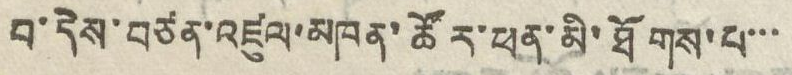བ་དེས་བཙན་འཛུལ་མཁན་ཚོར་ཕན་མི་ཐོགས་པ་་་
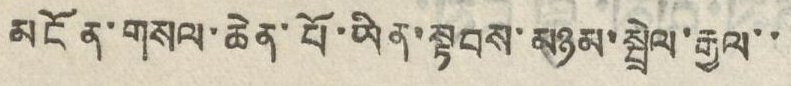མངོན་གསལ་ཆེན་པོ་ཡིན་སྟབས་མཉམ་སྦྲེལ་རྒྱལ་་
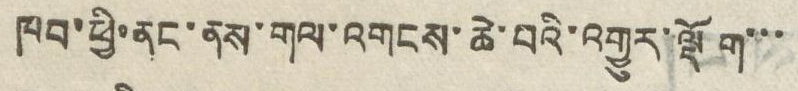ཁབ་ཕྱི་ནང་ནས་གལ་འགངས་ཆེ་བའི་འགྱུར་ལྡོག་་་
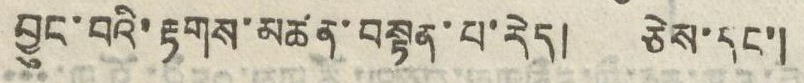བྱུང་བའི་རྟགས་མཚན་བསྟན་པ་རེད། ཅེས་དང་།
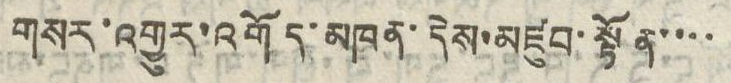གསར་འགྱུར་འགོད་མཁན་དེས་མཛུབ་སྟོན་་་་
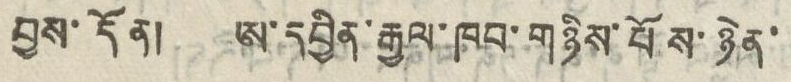བྱས་དོན། ཨ་དབྱིན་རྒྱལ་ཁབ་གཉིས་པོས་ཉེན་
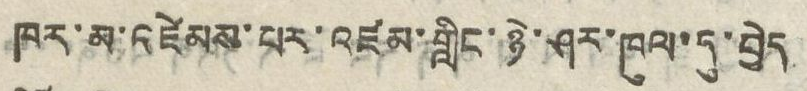ཁར་མ་འཛེམས་པར་འཛམ་གླིང་ཉེ་ཤར་ཁུལ་དུ་བྱེད
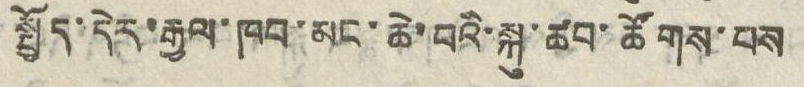སྤྱོད་དེར་རྒྱལ་ཁབ་མང་ཆེ་བའི་སྐུ་ཚབ་ཚོགས་པས
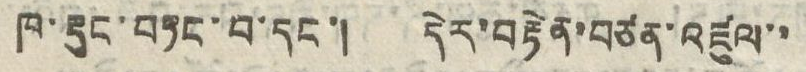ཁ་རྡུང་བཏང་བ་དང་། དེར་བརྟེན་བཙན་འཛུལ་་
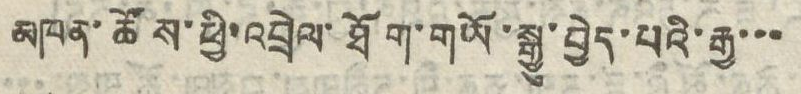མཁན་ཚོས་ཕྱི་འབྲེལ་ཐོག་གཡོ་སྒྱུ་བྱེད་པའི་རྒྱ་་་
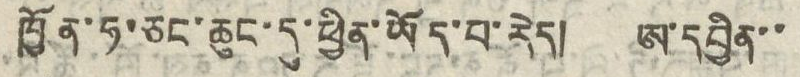ཁྱོན་ཧ་ཅང་ཆུང་དུ་ཕྱིན་ཡོད་པ་རེད། ཨ་དབྱིན་་
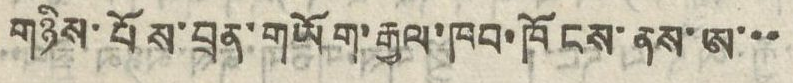གཉིས་པོས་བྲན་གཡོག་རྒྱལ་ཁབ་ཁོངས་ནས་ཨ་་་
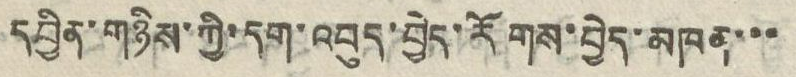དབྱིན་གཉིས་ཀྱི་དག་འབུད་བྱེད་རོགས་བྱེད་མཁན་་་
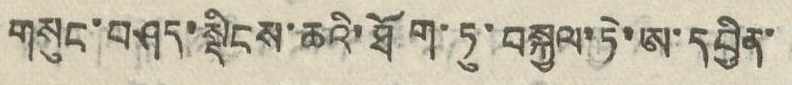གསུང་བཤད་སྡིངས་ཆའི་ཐོག་ཏུ་བསྐྱལ་ཏེ་ཨ་དབྱིན་
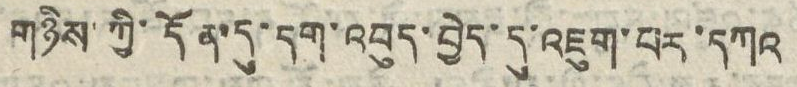གཉིས་ཀྱི་དོན་དུ་དག་འབུད་བྱེད་དུ་འཇུག་པར་དཀའ
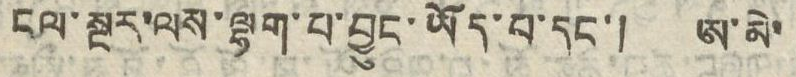ངལ་སྔར་ལས་ལྷག་པ་བྱུང་ཡོད་པ་དང་། ཨ་མེ་
